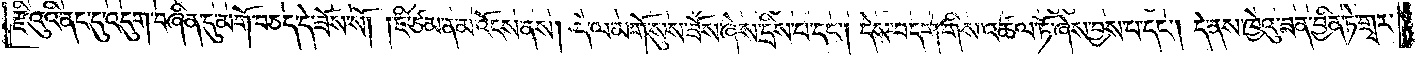རྫིའུའི་ནང་དུ་འདུག་བཞིན་དུ་མགོ་བཅད་དེ་ཟོས་སོ། །ཇི་ཙམ་ན་མ་འོངས་ནས། དེ་ལ་མགོ་སུས་ཟོས་ཞེས་དྲིས་པ་དང༌། དེས་བདག་གིས་འཆལ་ཏོ་ཞེས་བྱས་པ་དང༌། དེ་ནས་ཁྱེའུ་ཟན་བྱིན་ཏེ་གྲྭར་
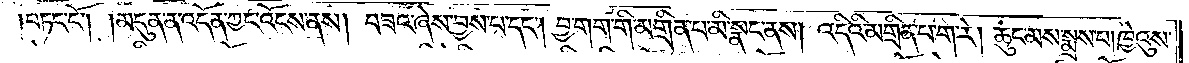བཏང་ངོ༌། །མདུན་ན་འདོན་ཀྱང་འོངས་ནས། བཟའ་ཞེས་བྱས་པ་དང༌། བྱ་གག་གི་མགྲིན་པ་མི་སྣང་ནས། འདིའི་མགྲིན་པ་ག་རེ། ཆུང་མས་སྨྲས་པ། ཁྱེའུས་
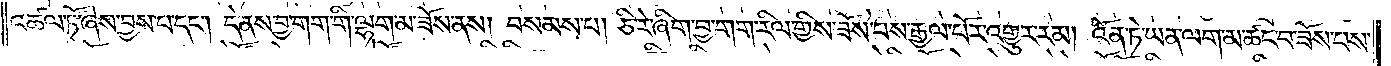འཚལ་ཏོ་ཞེས་བྱས་པ་དང༌། དེ་ནས་བྱ་གག་གི་ལྷག་མ་ཟོས་ནས། བསམས་པ། ཅི་རེ་ཞིག་བྱ་གག་རིལ་གྱིས་ཟོས་པས་རྒྱལ་པོར་འགྱུར་རམ། འོན་ཏེ་ཡན་ལག་མ་ཚང་བ་ཟོས་པས་
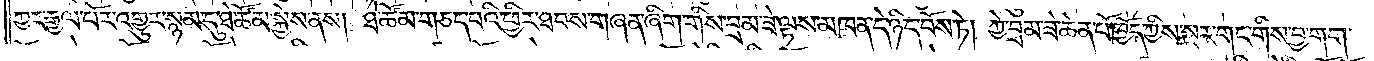ཀྱང་རྒྱལ་པོར་འགྱུར་སྙམ་དུ་ཐེ་ཚོམ་སྐྱེས་ནས། ཐེ་ཚོམ་གཅད་པའི་ཕྱིར་ཐབས་གཞན་ཞིག་གིས་བྲམ་ཟེ་ལྟས་མཁན་དེ་ཉིད་བོས་ཏེ། ཀྱེ་བྲམ་ཟེ་ཆེན་པོ་ཁྱོད་ཀྱིས་སྔར་གང་གིས་བྱ་གག་
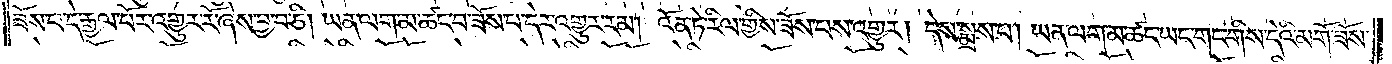ཟོས་པ་དེ་རྒྱལ་པོར་འགྱུར་རོ་ཞེས་བྱ་བ་ཅི། ཡན་ལག་མ་ཚང་བ་ཟོས་པ་དེར་འགྱུར་རམ། འོན་ཏེ་རིལ་གྱིས་ཟོས་པས་འགྱུར། དེས་སྨྲས་པ། ཡན་ལག་མ་ཚང་ཡང་གང་གིས་དེའི་མགོ་ཟོས་
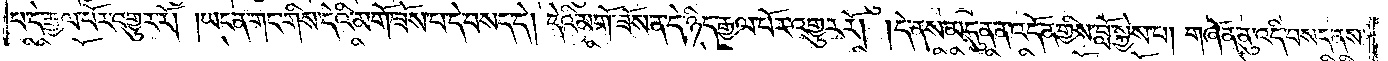པ་དེ་རྒྱལ་པོར་འགྱུར་རོ། །ཡང་ན་གང་གིས་དེའི་མགོ་ཟོས་པ་དེ་བསད་དེ། དེའི་མགོ་ཟོས་ན་དེ་ཉིད་རྒྱལ་པོར་འགྱུར་རོ། །དེ་ནས་མདུན་ན་འདོན་གྱིས་བློ་སྐྱེས་པ། གཞོན་ནུ་འདི་བསད་ནས་
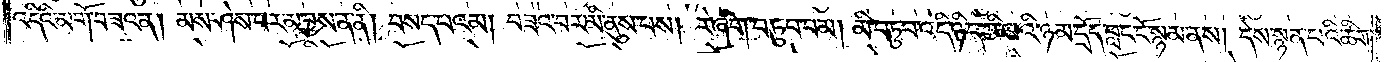འདིའི་མགོ་བཟའ་ན། མས་ཤེས་པར་མ་བྱས་ན་ནི། བསད་པའམ། བཟའ་བར་མི་ནུས་པས། རེ་ཞིག་བཏུབ་བམ། མི་བཏུབ་འདི་ཉིད་ཀྱི་མའི་ཉམ་དྲོད་བླང་ངོ་སྙམ་ནས། དེས་སྙན་པའི་ཚིག་
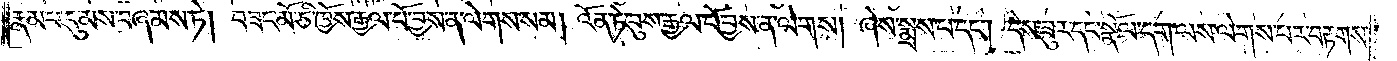རྣམ་པ་དུ་མས་བཞམས་ཏེ། བཟང་མོ་ཅི་ཁྱོས་རྒྱལ་པོ་བྱས་ན་ལེགས་སམ། འོན་ཏེ་བུས་རྒྱལ་པོ་བྱས་ན་ལེགས། ཞེས་སྨྲས་པ་དང༌། དེས་ཟུར་དང་སྣོལ་དག་ལས་ལེགས་པར་བརྟགས་
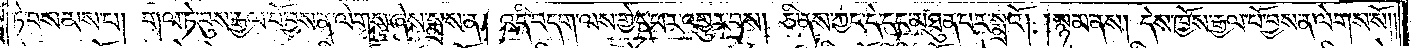ཏེ་བསམས་པ། གལ་ཏེ་བུས་རྒྱལ་པོ་བྱས་ན་ལེགས་ཞེས་སྨྲས་ན། འདི་བདག་ལས་གྱེད་པར་འགྱུར་བས། ཅི་ནས་ཀྱང་དེ་དང་མཐུན་པར་སྨྲའོ། །སྙམ་ནས། དེས་ཁྱོས་རྒྱལ་པོ་བྱས་ན་ལེགས་སོ། །
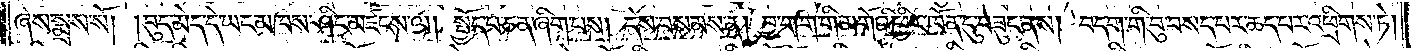ཞེས་སྨྲས་སོ། །བུད་མེད་དེ་ཡང་མཁས་ཤིང་མཛངས་ལ། སྤྱོད་པ་ཅན་ཞིག་པས། དེས་བསམས་ན། བྱ་གག་གི་མགོའི་ཕྱིར་ཁོན་དུ་བཟུང་ནས། བདག་གི་བུ་བསད་པར་ཆད་པར་འཕྲིགས་ཏེ།
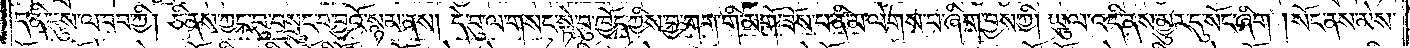ད་ནི་དུས་ལ་བབ་ཀྱི། ཅི་ནས་ཀྱང་བུ་བསྲུང་བ་བྱའོ་སྙམ་ནས། དེ་བུ་ལ་གསང་སྟེ་བུ་ཁྱོད་ཀྱིས་བྱ་གག་གི་མགོ་ཟོས་པ་ནི་མ་ལེགས་པ་ཞིག་བྱས་ཀྱི། ཡུལ་འདི་ནས་མྱུར་དུ་སོང་ཞིག །སོང་ནས་མེས་
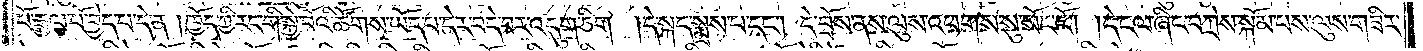པོ་རྒྱལ་པོ་བྱེད་པ་དེ་ན་།ཁྱོད་ཀྱི་རང་གི་སྐྱེ་བོའི་ཚོགས་ཡོད་པ་དེར་བདེ་བར་འདུག་ཅིག །དེ་སྐད་སྨྲས་པ་དང༌། ངེ་བྲོས་ནས་ལུས་འཕགས་སུ་སོང་ངོ༌། །དེ་ངལ་ཞིང་བཀྲེས་སྐོམ་པས་ལུས་གཟིར་
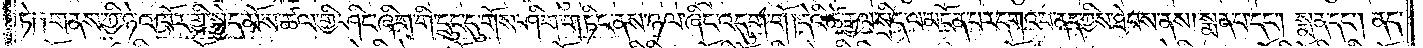ཏེ། །གནས་ཀྱི་ཉེ་འཁོར་གྱི་སྐྱེད་མོས་ཚལ་གྱི་ཤིང་ཞིག་གི་དྲུང་དུ་གོས་ཤིག་གཏིང་ནས་ཉལ་ཞིང་འདུག་གོ །དེའི་ཚེ་རྒྱལ་སྲིད་ལ་མངོན་པར་དགའ་བ་ནད་ཀྱིས་ཐེབས་ནས། སྨན་པ་དང༌། སྨན་དང༌། ནད་
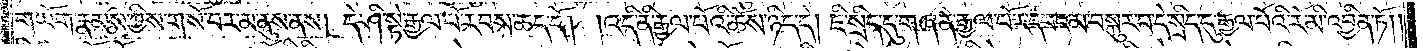གཡོག་རྣམས་ཀྱིས་གསོ་བར་མ་ནུས་ནས། དེ་ཤི་སྟེ་རྒྱལ་པོ་རབས་ཆད་དོ། །འདི་ནི་རྒྱལ་པོའི་ཆོས་ཉིད་དེ། ཇི་སྲིད་དུ་གཞན་རྒྱལ་པོར་དབང་མ་བསྐུར་བ་དེ་སྲིད་དུ་རྒྱལ་པོའི་རོ་མི་འབྱིན་ཏོ། །
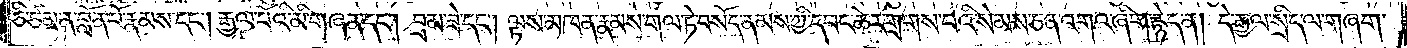ཅི་ཙམ་ན་བློན་པོ་རྣམས་དང༌། རྒྱལ་པོའི་མི་གཞན་དང༌། བྲམ་ཟེ་དང༌། ལྟས་མཁན་རྣམས་གལ་ཏེ་བསོད་ནམས་ཀྱི་དབང་ཆེར་གྲགས་པའི་སེམས་ཅན་འགའ་ཞིག་རྙེད་ན། དེ་རྒྱལ་སྲིད་ལ་གཞག་
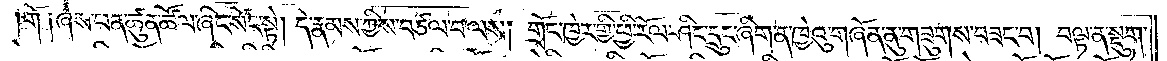གོ ༑ཞེས་ཕན་ཚུན་ཚོལ་ཞིང་སོང་སྟེ། དེ་རྣམས་ཀྱིས་བཙལ་བ་ལས། གྲོང་ཁྱེར་གྱི་ཕྱི་རོལ་ཤིང་དྲུང་ཞིག་ན་ཁྱེའུ་གཞོན་ནུ་གཟུགས་བཟང་བ། བལྟ་ན་སྡུག་
